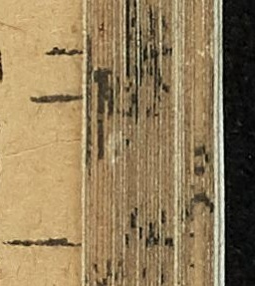十一
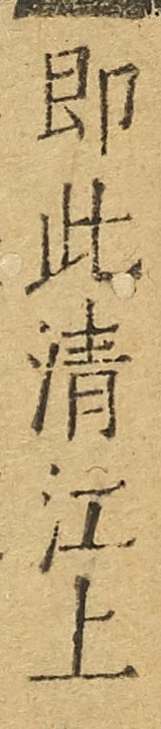卽此清江上
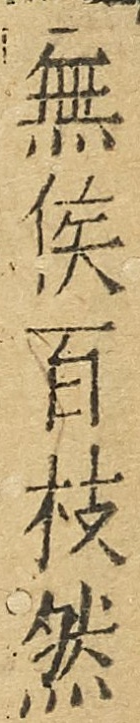無俟百枝然
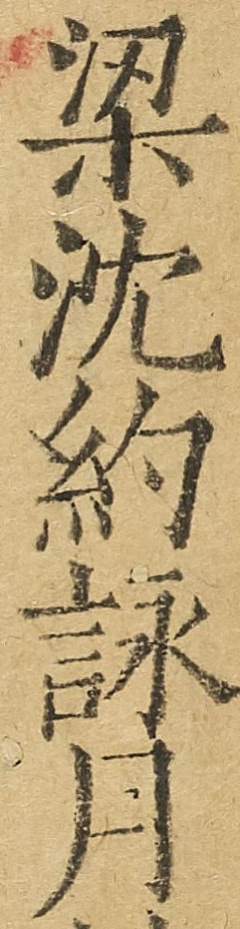梁沈約詠月詩
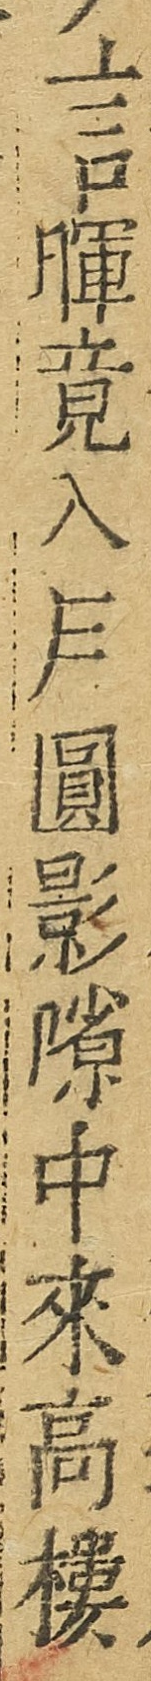暉竟戶入圓影隙中來高樓
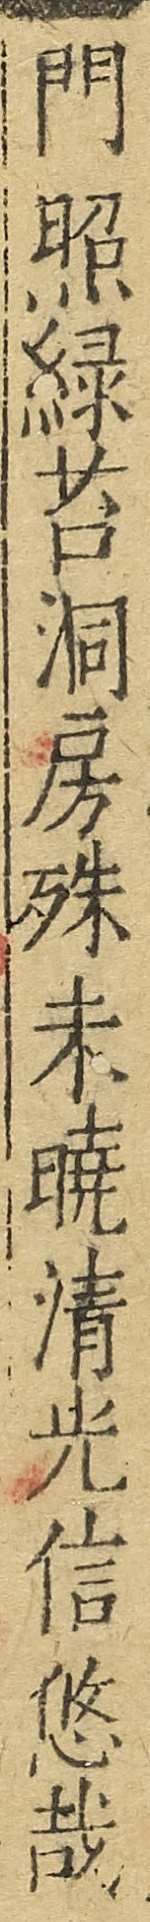門照綠苔洞房殊未曉清光信悠哉
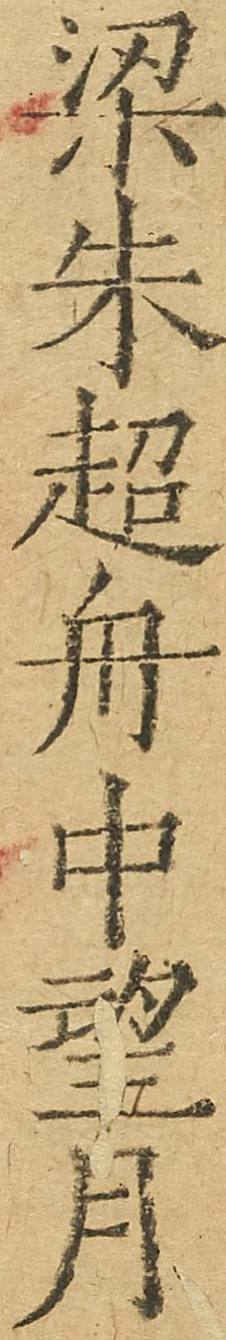梁朱超舟中望月
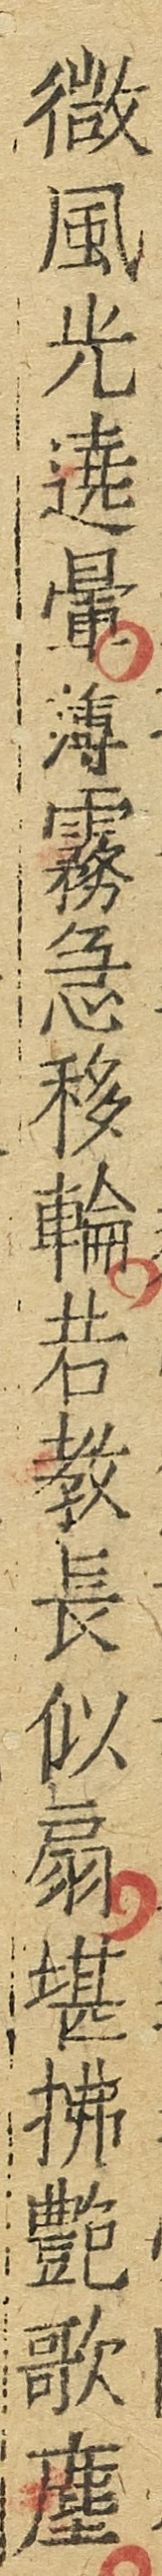微風光繞暈薄霧急移輪若敎長似扇堪拂豔歌塵
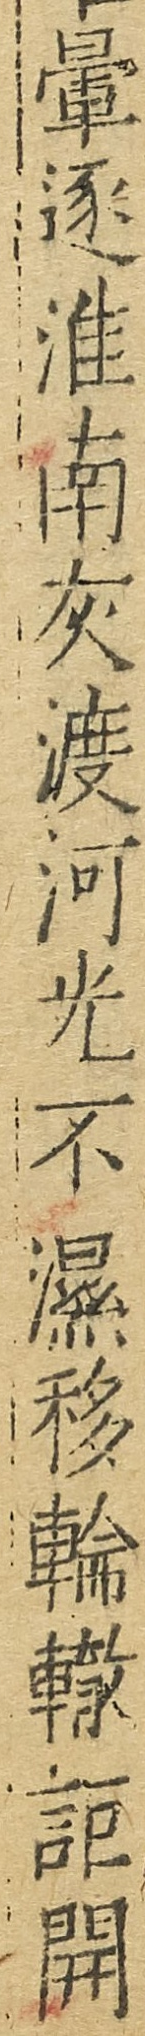暈逐淮南灰渡河光不濕移輪轍詎開
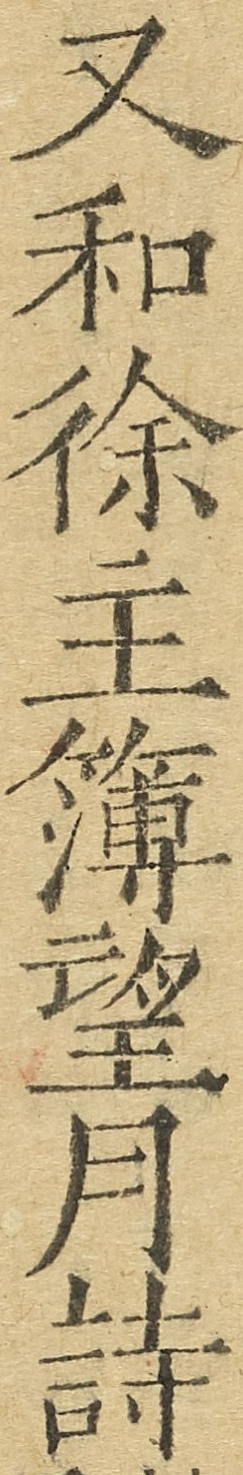又和徐主薄望月詩
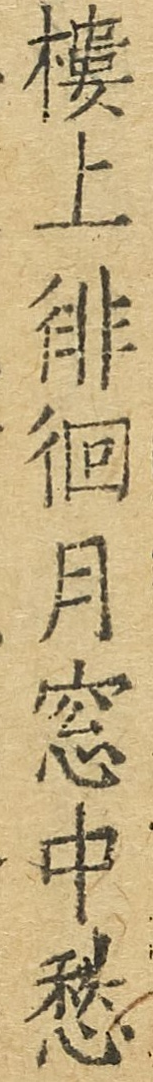樓上徘徊月窗中愁
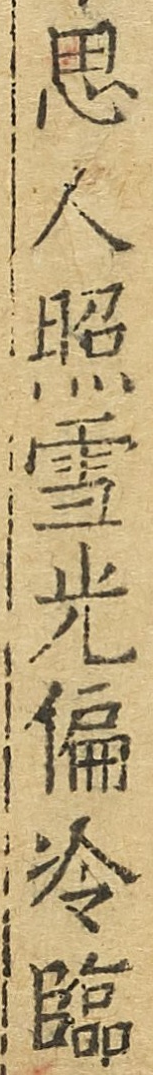思人照雪光偏冷臨
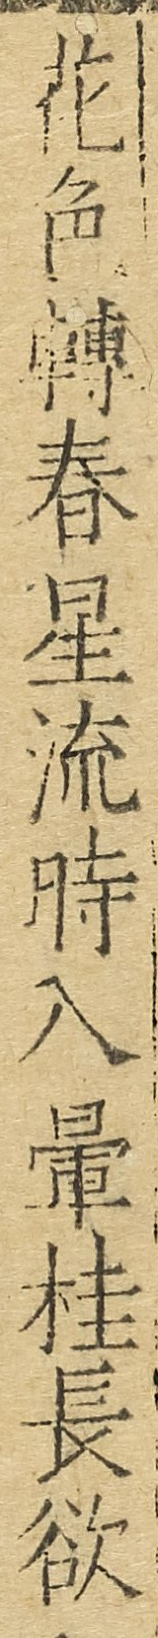花色轉春星流時入暈桂長欲
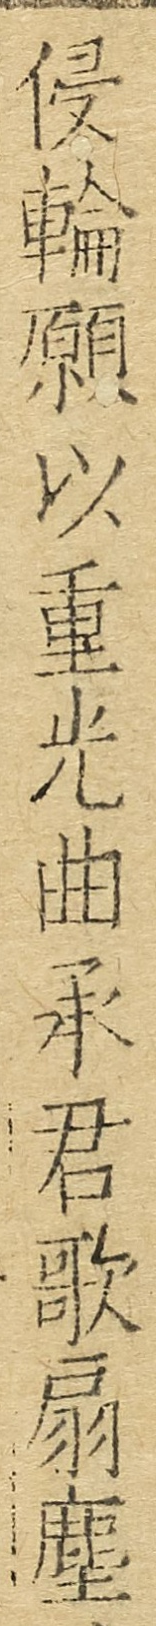侵輪願以重光曲承君歌扇塵
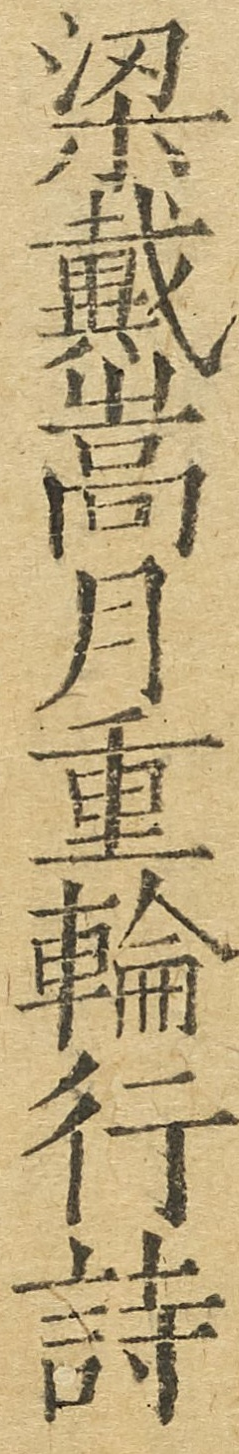梁戴嵩月重輪行詩
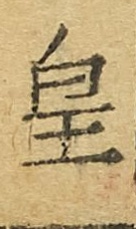皇
